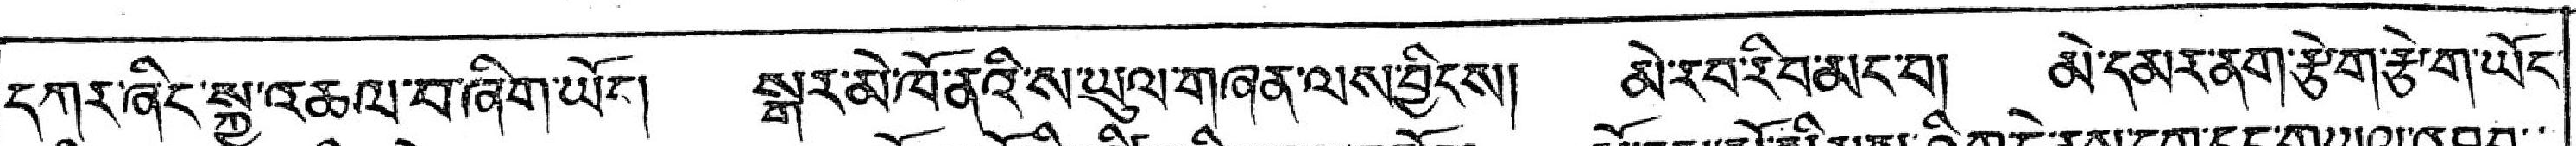དཀར་ཞིང་སྐྱུ་འཆལ་བ་ཞིག་ཡོད། སྒར་མེ་ཁོ་ནའི་ས་ཡུལ་གཞན་ལས་བྱིངས། མེ་རབ་རིབ་མང་བ། མེ་དམར་ནག་རྩེག་རྩེག་ཡོང་
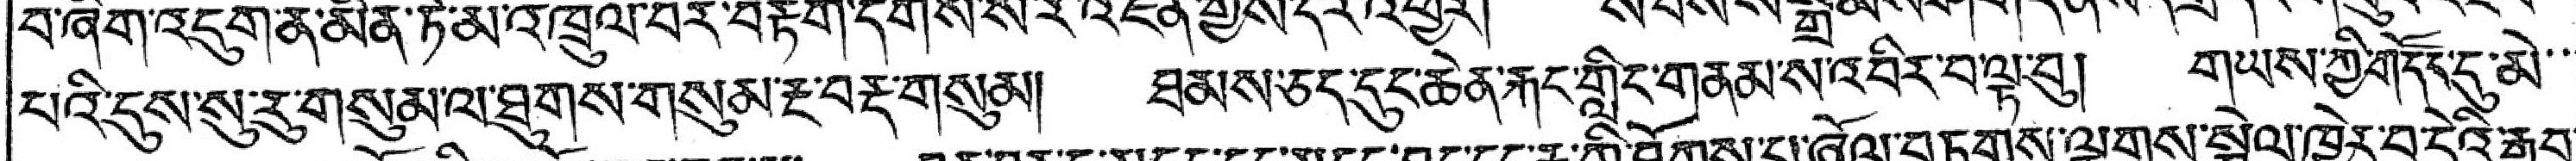པའི་དུས་སུ་རུ་གསུམ་ལ་ཐུགས་གསུམ་རྔ་བརྡ་གསུམ། ཐམས་ཅད་དུང་ཆེན་རྐང་གླིང་གནམ་ས་འབིར་བ་ལྟ་བུ། གཡས་ཀྱི་གདོང་དུ་མེ་་་
